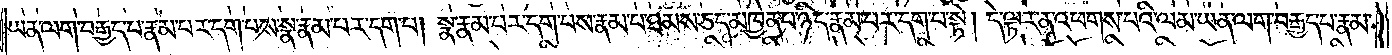ཡན་ལག་བརྒྱད་པ་རྣམ་པར་དག་པས་སྣ་རྣམ་པར་དག་པ། སྣ་རྣམ་པར་དག་པས་རྣམ་པ་ཐམས་ཅད་མཁྱེན་པ་ཉིད་རྣམ་པར་དག་པ་སྟེ། དེ་ལྟར་ན་འཕགས་པའི་ལམ་ཡན་ལག་བརྒྱད་པ་རྣམ་
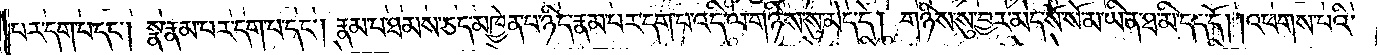པར་དག་པ་དང༌། སྣ་རྣམ་པར་དག་པ་དང༌། རྣམ་པ་ཐམས་ཅད་མཁྱེན་པ་ཉིད་རྣམ་པར་དག་པ་འདི་ལ་གཉིས་སུ་མེད་དེ། གཉིས་སུ་བྱར་མེད་སོ་སོ་མ་ཡིན་ཐ་མི་དད་དོ། །འཕགས་པའི་
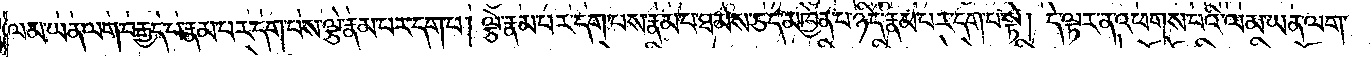ལམ་ཡན་ལག་བརྒྱད་པ་རྣམ་པར་དག་པས་ལྕེ་རྣམ་པར་དག་པ། ལྕེ་རྣམ་པར་དག་པས་རྣམ་པ་ཐམས་ཅད་མཁྱེན་པ་ཉིད་རྣམ་པར་དག་པ་སྟེ། དེ་ལྟར་ན་འཕགས་པའི་ལམ་ཡན་ལག་
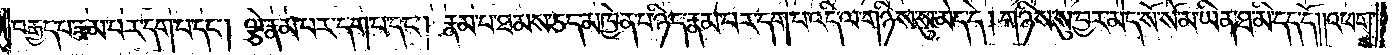བརྒྱད་པ་རྣམ་པར་དག་པ་དང༌། ལྕེ་རྣམ་པར་དག་པ་དང༌། རྣམ་པ་ཐམས་ཅད་མཁྱེན་པ་ཉིད་རྣམ་པར་དག་པ་འདི་ལ་གཉིས་སུ་མེད་དེ། གཉིས་སུ་བྱར་མེད་སོ་སོ་མ་ཡིན་ཐ་མི་དད་དོ། །འཕགས་
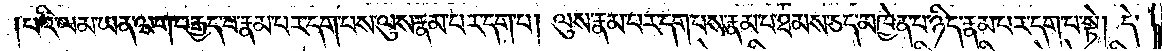པའི་ལམ་ཡན་ལག་བརྒྱད་པ་རྣམ་པར་དག་པས་ལུས་རྣམ་པར་དག་པ། ལུས་རྣམ་པར་དག་པས་རྣམ་པ་ཐམས་ཅད་མཁྱེན་པ་ཉིད་རྣམ་པར་དག་པ་སྟེ། དེ་
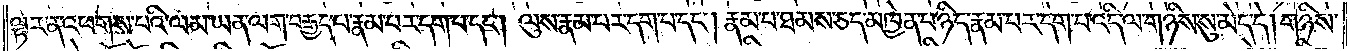ལྟར་ན་འཕགས་པའི་ལམ་ཡན་ལག་བརྒྱད་པ་རྣམ་པར་དག་པ་དང༌། ལུས་རྣམ་པར་དག་པ་དང༌། རྣམ་པ་ཐམས་ཅད་མཁྱེན་པ་ཉིད་རྣམ་པར་དག་པ་འདི་ལ་གཉིས་སུ་མེད་དེ། གཉིས་
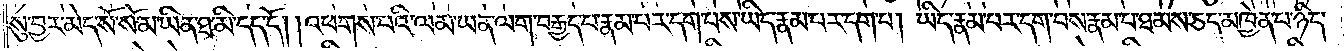སུ་བྱར་མེད་སོ་སོ་མ་ཡིན་ཐ་མི་དད་དོ། །འཕགས་པའི་ལམ་ཡན་ལག་བརྒྱད་པ་རྣམ་པར་དག་པས་ཡིད་རྣམ་པར་དག་པ། ཡིད་རྣམ་པར་དག་པས་རྣམ་པ་ཐམས་ཅད་མཁྱེན་པ་ཉིད་
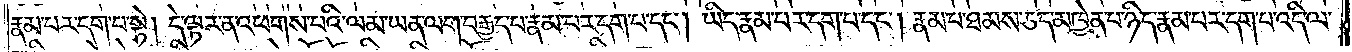རྣམ་པར་དག་པ་སྟེ། དེ་ལྟར་ན་འཕགས་པའི་ལམ་ཡན་ལག་བརྒྱད་པ་རྣམ་པར་དག་པ་དང༌། ཡིད་རྣམ་པར་དག་པ་དང༌། རྣམ་པ་ཐམས་ཅད་མཁྱེན་པ་ཉིད་རྣམ་པར་དག་པ་འདི་ལ་
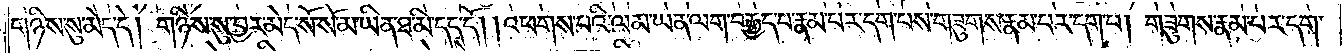གཉིས་སུ་མེད་དེ། གཉིས་སུ་བྱར་མེད་སོ་སོ་མ་ཡིན་ཐ་མི་དད་དོ། །འཕགས་པའི་ལམ་ཡན་ལག་བརྒྱད་པ་རྣམ་པར་དག་པས་གཟུགས་རྣམ་པར་དག་པ། གཟུགས་རྣམ་པར་དག་
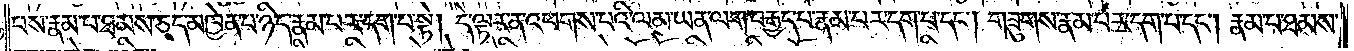པས་རྣམ་པ་ཐམས་ཅད་མཁྱེན་པ་ཉིད་རྣམ་པར་དག་པ་སྟེ། དེ་ལྟར་ན་འཕགས་པའི་ལམ་ཡན་ལག་བརྒྱད་པ་རྣམ་པར་དག་པ་དང༌། གཟུགས་རྣམ་པར་དག་པ་དང༌། རྣམ་པ་ཐམས་
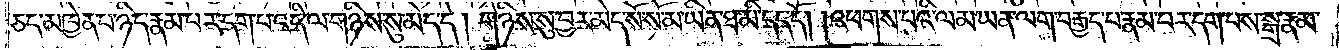ཅད་མཁྱེན་པ་ཉིད་རྣམ་པར་དག་པ་འདི་ལ་གཉིས་སུ་མེད་དེ། གཉིས་སུ་བྱར་མེད་སོ་སོ་མ་ཡིན་ཐ་མི་དད་དོ། །འཕགས་པའི་ལམ་ཡན་ལག་བརྒྱད་པ་རྣམ་པར་དག་པས་སྒྲ་རྣམ་
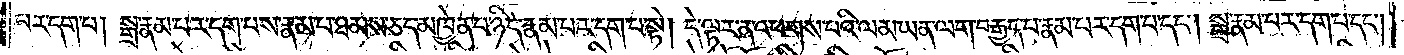པར་དག་པ། སྒྲ་རྣམ་པར་དག་པས་རྣམ་པ་ཐམས་ཅད་མཁྱེན་པ་ཉིད་རྣམ་པར་དག་པ་སྟེ། དེ་ལྟར་ན་འཕགས་པའི་ལམ་ཡན་ལག་བརྒྱད་པ་རྣམ་པར་དག་པ་དང༌། སྒྲ་རྣམ་པར་དག་པ་དང༌།
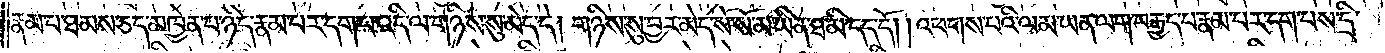རྣམ་པ་ཐམས་ཅད་མཁྱེན་པ་ཉིད་རྣམ་པར་དག་པ་འདི་ལ་གཉིས་སུ་མེད་དེ། གཉིས་སུ་བྱར་མེད་སོ་སོ་མ་ཡིན་ཐ་མི་དད་དོ། །འཕགས་པའི་ལམ་ཡན་ལག་བརྒྱད་པ་རྣམ་པར་དག་པས་དྲི་
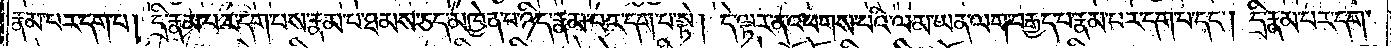རྣམ་པར་དག་པ། དྲི་རྣམ་པར་དག་པས་རྣམ་པ་ཐམས་ཅད་མཁྱེན་པ་ཉིད་རྣམ་པར་དག་པ་སྟེ། དེ་ལྟར་ན་འཕགས་པའི་ལམ་ཡན་ལག་བརྒྱད་པ་རྣམ་པར་དག་པ་དང༌། དྲི་རྣམ་པར་དག་
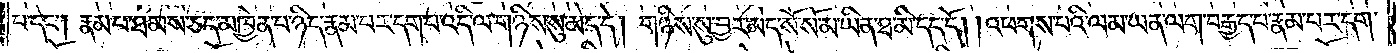པ་དང༌། རྣམ་པ་ཐམས་ཅད་མཁྱེན་པ་ཉིད་རྣམ་པར་དག་པ་འདི་ལ་གཉིས་སུ་མེད་དེ། གཉིས་སུ་བྱར་མེད་སོ་སོ་མ་ཡིན་ཐ་མི་དད་དོ། །འཕགས་པའི་ལམ་ཡན་ལག་བརྒྱད་པ་རྣམ་པར་དག་
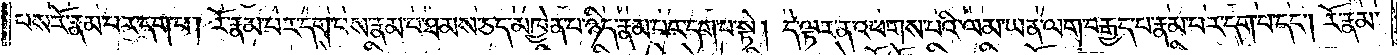པས་རོ་རྣམ་པར་དག་པ། རོ་རྣམ་པར་དག་པས་རྣམ་པ་ཐམས་ཅད་མཁྱེན་པ་ཉིད་རྣམ་པར་དག་པ་སྟེ། དེ་ལྟར་ན་འཕགས་པའི་ལམ་ཡན་ལག་བརྒྱད་པ་རྣམ་པར་དག་པ་དང༌། རོ་རྣམ་
